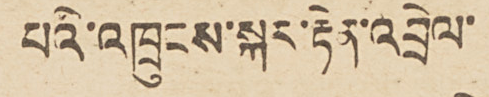པའི་འཁྲུངས་སྐར་རྟེན་འབྲེལ་
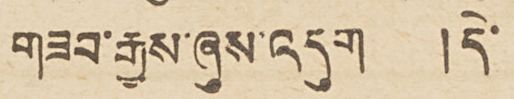གཟབ་རྒྱས་ཞུས་འདུག །དེ་
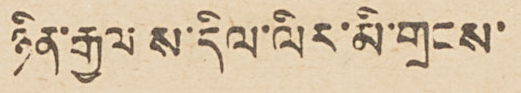ཉིན་རྒྱལ ས་དིལ་ལིར་མི་གྲངས་
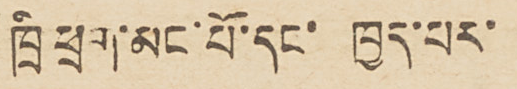ཁྲི ཕྲག་མང་པོ་དང་ ཁྱད་པར་
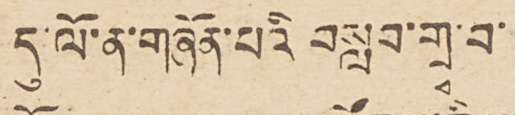དུ་ལོ་ན་གཞོན་པའི བསླབ་གྲྭ་བ་
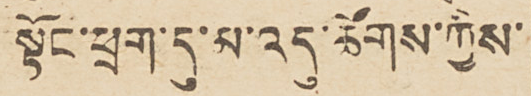སྟོང་ཕྲག་དུ་མ་འདུ་ཚོགས་ཀྱིས་
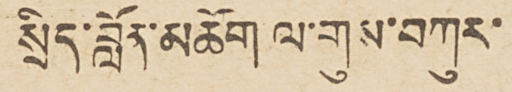སྲིད་བློན་མཆོག ལ་གུས་བཀུར་
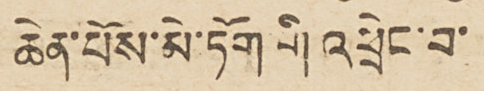ཆེན་པོས་མེ་ཏོག གི འཕྲེང་བ་
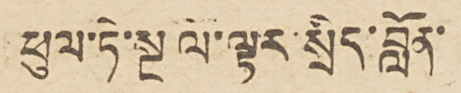ཕུལ་ཏེ་སྔ ལོ་ལྟར་སྲིད་བློན་
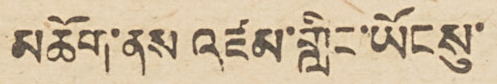མཆོག་ནས འཛམ་གླིང་ཡོངསུ་
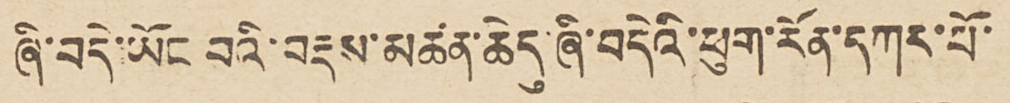ཞི་བདེ་ཡོང བའི་བརྡས་མཚན་ཆེདུ་ཞི་བདེའི་ཕུག་རོན་དཀར་པོ་
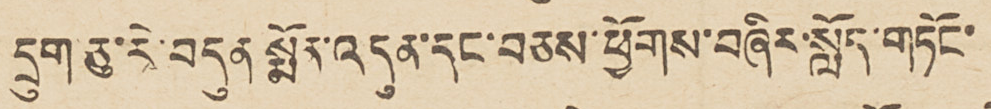དྲུག་ཅུ་རེ་བདུན སྨོན་འདུན་དང་བཅས་ཕྱོགས་བཞིར་སློད་གཏོང་
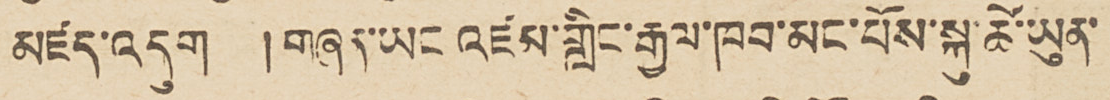མཛད་འདུག  །གཞན་ཡང འཛམ་གླིང་རྒྱལ་ཁབ་མང་པོས་སྐུ་ཚེ་ཡུན་
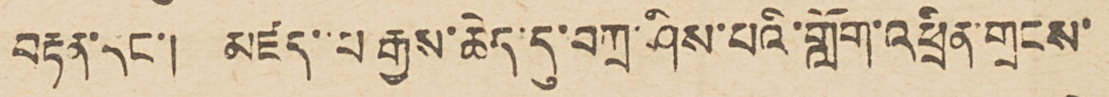བརྟན་དང་། མཛད་པ རྒྱས་ཆེད་དུ་བཀྲ་ཤིས་པའི་གློག་འཕྲིན་གྲངས་
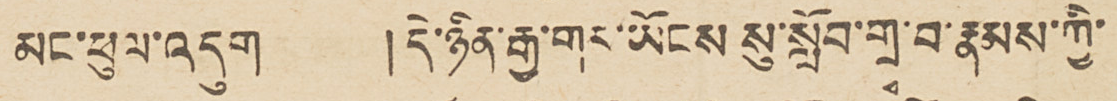མང་ཕུལ་འདུག    །དེ་ཉིན་རྒྱ་གར་ཡོངས སུ་སློབ་གྲྭ་བ་རྣམས་ཀྱི་
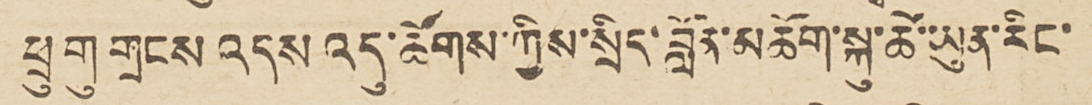ཕྲུ གུ གྲངས འདས འདུ་ཚོགས་ཀྱིས་སྲིད་བློན་མཆོག་སྐུ་ཚེ་ཡུན་རིང་
